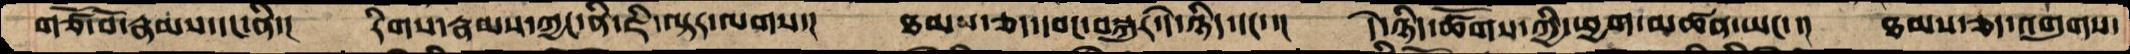གཙོ་བོ་རྣམས་དང་ནི་།  རིགས་རྣམས་ཀྱང་ནི་ཇི་ལྟར་ལགས་།  ཐམས་ཅད་དབང་བསྐུར་དེ་ཉིད་དང་་།  དེ་ཉིད་ཚོགས་ཀྱི་ཕྱག་མཚན་ཡང་་།  ཐམས་ཅད་འགུགས་
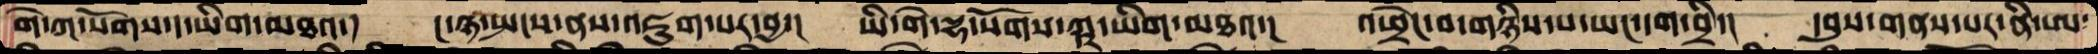གེ་ཀ་སོགས་ད་ཡིག་མཐའ་།  ང་ཉ་སྤངས་ནས་འཇུག་པར་བྱ་།  ཡི་གེ་དྷ་སོགས་ཀྵ་ཡིག་མཐའ་།  འཕྲེང་བ་གཉིས་པ་ཡང་དག་བྲི་།  དབུས་གནས་པར་ནི་ཨ་
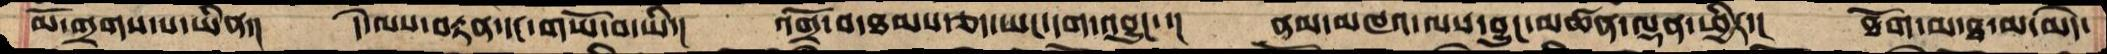མོ་གྲགས་པ་ཡིན་།  དེ་ལས་བརྟན་དང་གཡོ་བ་ཡི་།  འགྲོ་བ་ཐམས་ཅད་ཡང་དག་འབྱུང་་།  ནམ་མཁའ་ལས་བྱུང་མཚན་ལྡན་ཕྱིར་།  ཐོག་མ་ཐ་མ་མེད་
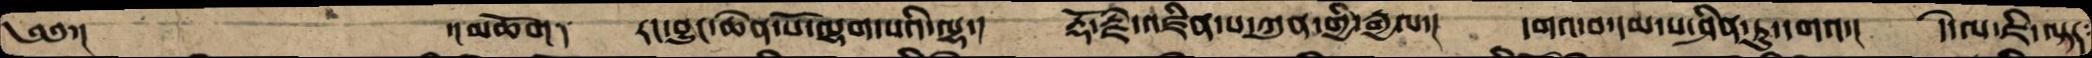༄༅་།     ་།མཆོག།   རང་བྱུང་ཆེན་པོ་ལྷག་པའི་ལྷ་།  རྡོ་རྗེ་འཛིན་པ་ཀུན་གྱི་རྒྱལ་།  དགའ་བ་དམ་པ་ཤིན་ཏུ་དགའ་།  དེ་ལ་ཇི་ལྟར་
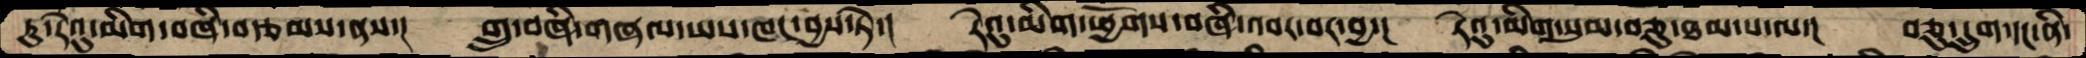ཏུ་རེའུ་མིག་བཞི་བརྩམས་ནས་།  གྲུ་བཞི་གཞལ་ཡས་ཁང་བྱས་ཏེ་།  རེའུ་མིག་ཕྱོགས་བཞི་འབར་བར་བྱ་།  རེའུ་མིག་སུམ་བཅུ་ཐམ་པ་ལ་།  བཅུ་དྲུག་དང་ནི་
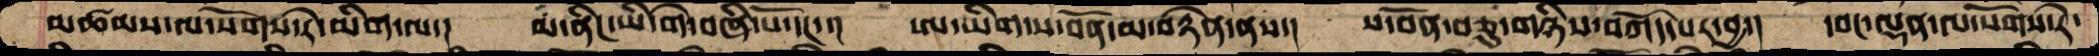མཚམས་ལ་སོགས་རེ་མིག་ལ་།  མ་ནིང་ཡི་གེ་བཞི་པོ་དང་་།  ཨ་ཡིག་ས་བོན་མ་བརྟེན་ནས་། ས་བོན་བཅུ་གཉིས་བཀོད་པར་བྱ་།  དབང་ལྡན་ལ་སོགས་རེ་
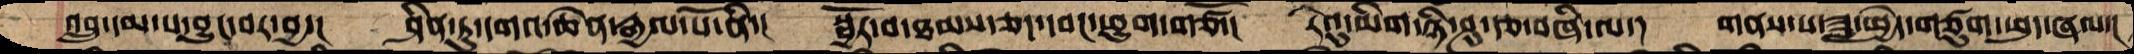འབྲུ་དམ་པ་འབྱུང་བར་བྱ་།  ཤིན་ཏུ་དགའ་ཆེན་རྒྱལ་པོ་ནི་།  སྦྱོར་བ་ཐམས་ཅད་དབང་ཕྱུག་གཙོ་།  རེའུ་མིག་ཉི་ཤུ་རྩ་བཞི་ལ་།  གནས་པ་ཟླ་ཕྱེད་གཙུག་ཕུད་ཞལ་།
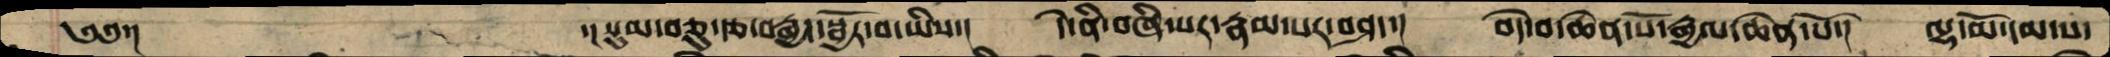༄༅་།       ་།སུམ་བཅུ་རྩ་བརྒྱད་སྦྱོར་བ་ཡིས་།  དེ་ནི་བཞི་པར་རྣམ་པར་བཤད་།  བདེ་བ་ཆེན་པོ་རྒྱལ་ཆེན་པོ་།  ལྷ་མོ་དམ་པ་
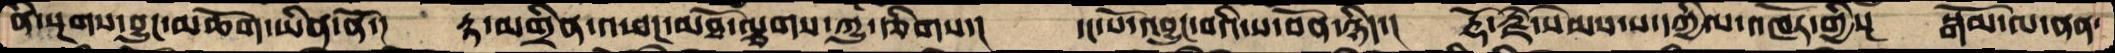ནི་སྔགས་བྱུང་མཆོག་ཡིན་ནོ་།  རྟ་མགྲིན་འཕང་མཐོ་ལྕགས་ཀྱུ་རྩིགས་།  དང་པོ་འབྱུང་བའི་ས་བོན་ཉིད་།  རྡོ་རྗེ་སེམས་པ་དཀྱིལ་འཁོར་གྱི་།  སྒོམ་ལ་ནན་
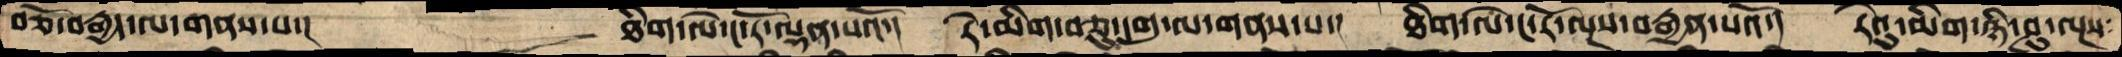བཅོ་བརྒྱད་ལ་གནས་པ་།       ཐིག་ལེ་ང་རོ་ལྡན་པའོ་།  དེ་མིག་བཅུ་དགུ་ལ་གནས་པ་།  ཐིག་ལེ་ང་རོ་ལྔས་བརྒྱན་པའོ་།  རེའུ་མིག་ཉི་ཤུ་ལྔས
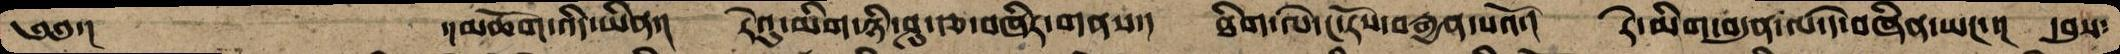༄༅་།      ་།མཆོག་འདི་ཡིན་།  རེའུ་མིག་ཉི་ཤུ་རྩ་བཞིར་གནས་།  ཐིག་ལེ་ང་རོས་བརྒྱན་པའོ་།  རེ་མིག་བདུན་ལ་དེ་བཞིན་ཡང་་།  དབུས་
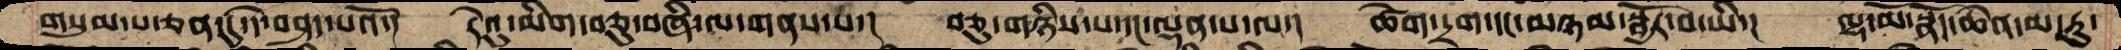གསུམ་པ་ཅན་དུ་དེ་བཤད་པའོ་།  རེའུ་མིག་བཅུ་བཞི་ལ་གནས་པ་།  བཅུ་གཉིས་པ་དང་ལྡན་པ་ལ་།  ཚེག་དྲག་དང་མཉམ་སྦྱོར་བ་ཡི་།  ལྷ་མོ་སྣོད་ཆེན་མ་རུ་
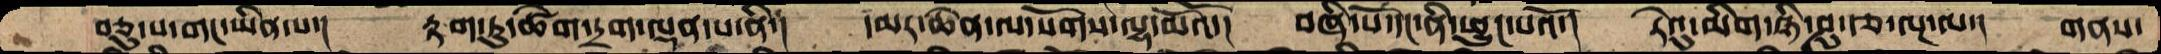བཅུ་པ་གང་ཡིན་པ་།  རྟག་ཏུ་ཚེག་དྲག་ལྡན་པ་ནི་།  དམར་ཆེན་ལ་སོགས་ལྷ་མོའོ་།  བཞི་པོ་དང་ནི་ཕྱུང་པའོ་།  རེའུ་མིག་ཉི་ཤུ་རྩ་ལྔ་ལ་།  གནས་
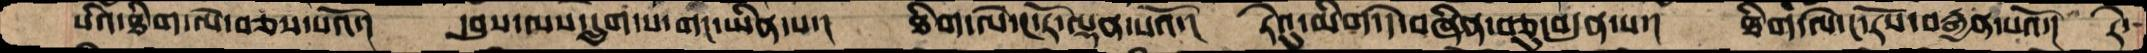པའི་ཐིག་ལེ་བཅས་པའོ་།  དབུས་ལས་དྲུག་པ་གང་ཡིན་པ་།  ཐིག་ལེ་ང་རོ་ལྡན་པའོ་།  རེའུ་མིག་དེ་བཞིན་བཅུ་བདུན་པ་།  ཐིག་ལེ་ང་རོས་བརྒྱན་པའོ་།  རེ་
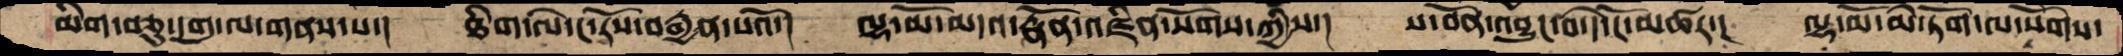མིག་བཅུ་ལ་གནས་པ་།  ཐིག་ལེ་ང་རོས་བརྒྱན་པའོ་།  ལྷ་མོ་མདའ་རྣོན་འཛིན་སོགས་ཀྱིས་།  ས་བོན་བྱུང་བ་དེ་ངོ་མཚར་།  ལྷ་མོ་མེ་ཏོག་ལ་སོགས་
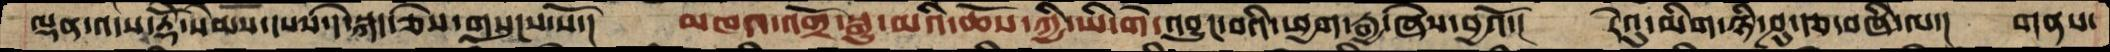ལྡན་འདས་རྡོེ་སེམས་དཔས་དེ་སྐད་ཅེས་གསུངས་སོ་།  མཁའ་འགྲོ་སྒྱུ་མའི་ཆོས་ཀྱི་ཡི་གེ་འབྱུང་བའི་ཕྱག་རྒྱ་ཞེས་བྱའོ་།  རེའུ་མིག་ཉི་ཤུ་རྩ་བཞི་ལ་།  གནས་
